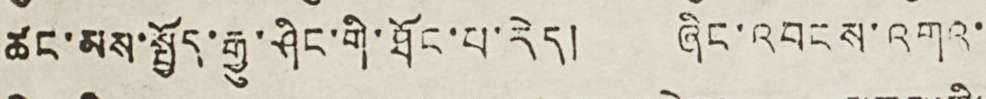ཚང་མས་སྤྱོད་རྒྱུ་ཤིང་གི་ཐོང་པ་རེད། ཞིང་འབངས་འགའ་
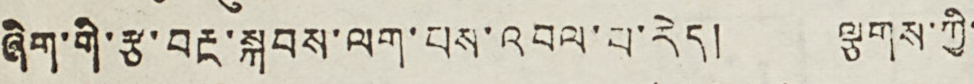ཞིག་གི་རྩ་བརྔ་སྐབས་ལག་པས་འབལ་པ་རེད། ལྕགས་ཀྱི་
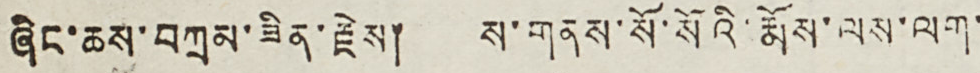ཞིང་ཆས་བཀྲམ་ཟིན་རྗེས། ས་གནས་སོ་སོའི་རྨོས་ལས་ལག་
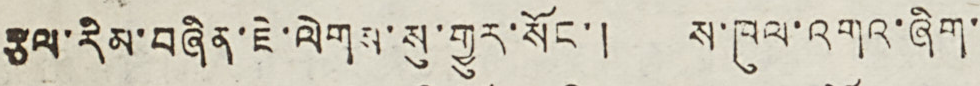རྩལ་རིམ་བཞིན་ཇེ་ལེགས་སུ་གྱུར་སོང་། ས་ཁལ་འགའ་ཞིག་
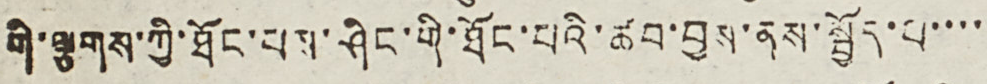གི་ལྕགས་ཀྱི་ཐོང་པས་ཤིང་གི་ཐོང་པའི་ཚབ་བྱས་ནས་སྤྱོད་པ་་་་
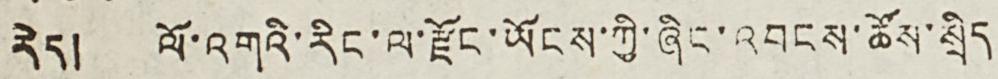རེད། ལོ་འགའི་རིང་ལ་རྫོང་ཡོངས་ཀྱི་ཞིང་འབངས་ཚོས་སྲིད
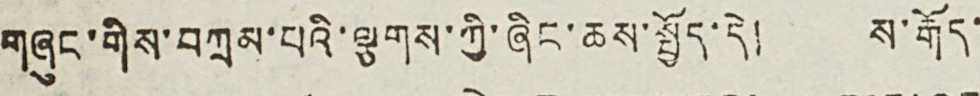གཞུང་གིས་བཀྲམ་པའི་ལྕགས་ཀྱི་ཞིང་ཆས་སྤྱོད་དེ། ས་རྒོད་
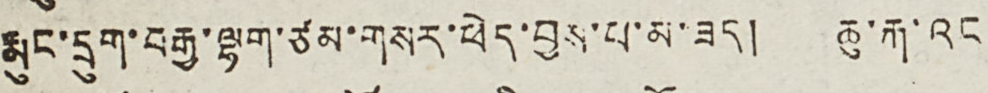རྨུང་དྲུག་བརྒྱ་ལྷག་ཙམ་གསར་ཕེད་བྱས་པ་མ་ཟད། ཆུ་རྐ་འང
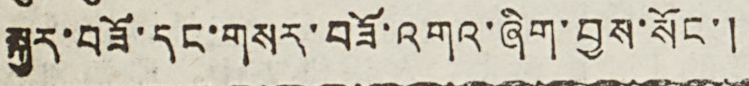སྐྱར་བཟོ་དང་གསར་བཟོ་འགའ་ཞིག་བྱས་སོང་།
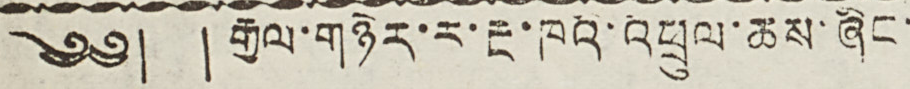༄༅། །རྒྱལ་གཉེར་ར་རྔ་ཁའི་འཕྲུལ་ཆས་ཞིང་
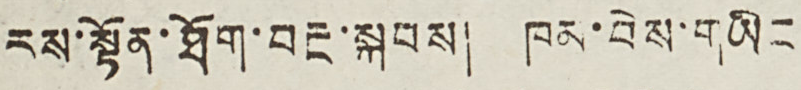རས་སྟོན་ཐོག་བརྔ་སྐབས། ཁམ་བེས་གཡིང
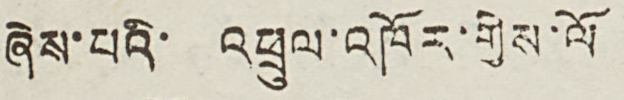ཞེས་པའི་ འཕྲུལ་འཁོར་གྱིས་ལོ
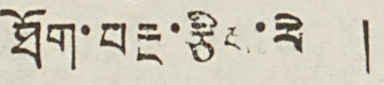ཐོག་བརྔ་རྩིས་རེད །
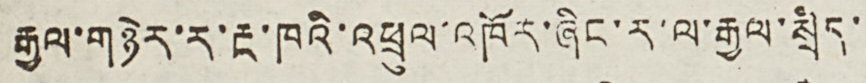རྒྱལ་གཉེར་ར་རྔ་ཁའི་འཕྲུལ་འཁོར་ཞིང་ར་ལ་རྒྱལ་སྲིད་
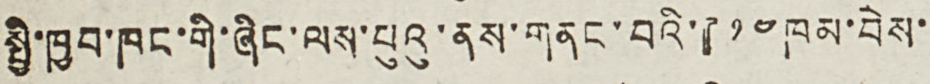སྤྱི་ཁྱབ་ཁང་གི་ཞིང་ལས་པུའུ་ནས་གནང་བའི་『༡༤ ཁམ་བེས་
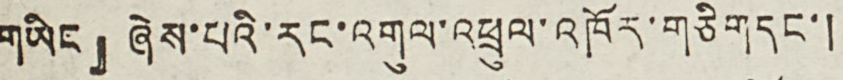གཡིང』ཞེས་པའི་རང་འགུལ་འཕྲུལ་འཁོར་གཅིག དང་།
